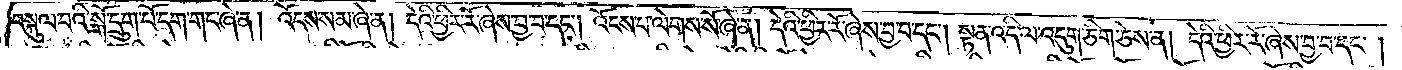བསྐུལ་བའི་སྒོ་དྲུག་པོ་དག་གང་ཞེ་ན། འོངས་སམ་ཞེ་ན། དེའི་ཕྱིར་རོ་ཞེས་བྱ་བ་དང༌། འོངས་པ་ལེགས་སོ་ཞེ་ན། དེའི་ཕྱིར་རོ་ཞེས་བྱ་བ་དང༌། སྟན་འདི་ལ་འདུག་ཅིག་ཅེས་ན། དེའི་ཕྱིར་རོ་ཞེས་བྱ་བ་དང༌།
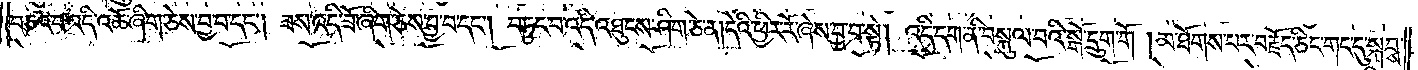བཅའ་བ་འདི་འཚོ་ཞིག་ཅེས་བྱ་བ་དང༌། ཟས་འདི་ཟོ་ཞིག་ཅེས་བྱ་བ་དང༌། བཏུང་བ་འདི་འཐུངས་ཤིག་ཅེ་ན། དེའི་ཕྱིར་རོ་ཞེས་བྱ་བ་སྟེ། འདི་དག་ནི་བསྐུལ་བའི་སྒོ་དྲུག་གོ །མ་ཐོགས་པར་བརྗོད་ཅིང་གང་དུ་སྐབས་
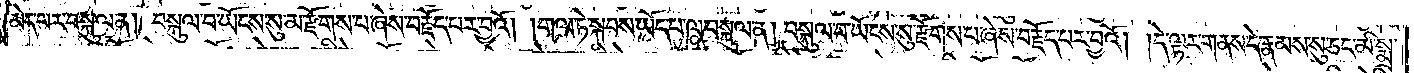མེད་པར་བསྐུལ་ན། བསྐུལ་བ་ཡོངས་སུ་མ་རྫོགས་པ་ཞེས་བརྗོད་པར་བྱའོ། །གལ་ཏེ་སྐབས་ཡོད་པ་ལ་བསྐུལ་ན། བསྐུལ་བ་ཡོངས་སུ་རྫོགས་པ་ཞེས་བརྗོད་པར་བྱའོ། །དེ་ལྟར་གནས་དེ་རྣམས་སུ་ཅང་མི་སྨྲ་
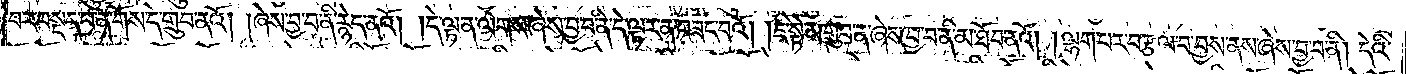བར་བསྡད་པ་ན་གོས་དེ་གྲུབ་ནའོ། །ཞེས་བྱ་བ་ནི་རྙེད་ནའོ། །དེ་ལྟ་ན་ལེགས་ཞེས་བྱ་བ་ནི་དེ་ལྟར་ན་བཟང་བའོ། །ཇི་སྟེ་མ་གྲུབ་ན་ཞེས་བྱ་བ་ནི་མ་ཐོབ་ནའོ། །ལྷག་པར་བརྩལ་བ་བྱས་ནས་ཞེས་བྱ་བ་ནི། དེའི་
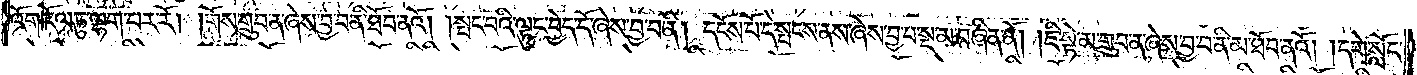འོག་རོལ་ཏུ་ལྷག་པར་རོ། །གོས་གྲུབ་ན་ཞེས་བྱ་བ་ནི་ཐོབ་ནའོ། །སྤང་བའི་ལྟུང་བྱེད་དོ་ཞེས་བྱ་བ་ནི། དངོས་པོ་དེ་སྤངས་ནས་ཞེས་བྱ་བ་སྔ་མ་བཞིན་ནོ། །ཇི་སྟེ་མ་གྲུབ་ན་ཞེས་བྱ་བ་ནི་མ་ཐོབ་ནའོ། །དགེ་སློང་
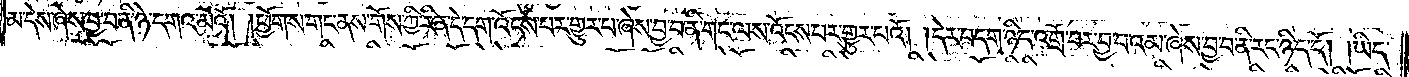མ་དེས་ཞེས་བྱ་བ་ནི་ཉེ་དགའ་མོའོ། །ཕྱོགས་གང་ནས་གོས་ཀྱི་རིན་དེ་དག་འོངས་པར་གྱུར་པ་ཞེས་བྱ་བ་ནི་གང་ལས་འོངས་པར་གྱུར་པའོ། །དེར་བདག་ཉིད་འགྲོ་བར་བྱ་བའམ་ཞེས་བྱ་བ་ནི་རང་ཉིད་དོ། །ཡིད་
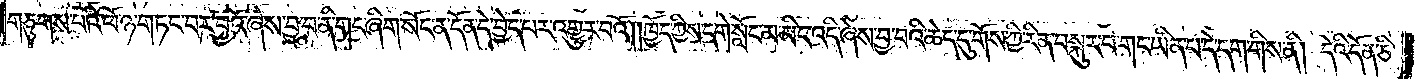གཅུགས་པའི་ཕོ་ཉ་གཏང་བར་བྱའོ་ཞེས་བྱ་བ་ནི་གང་ཞིག་སོང་ན་དོན་དེ་བྱེད་པར་འགྱུར་བའོ། །ཁྱོད་ཀྱིས་དགེ་སློང་མ་མིང་འདི་ཞེས་བྱ་བའི་ཆེད་དུ་གོས་ཀྱི་རིན་བསྐུར་བ་གང་ཡིན་པ་དེ་དག་གིས་ནི། དེའི་དོན་ཅི་
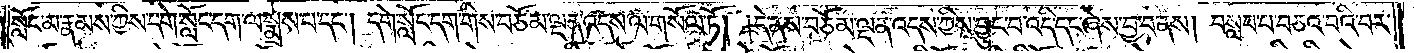སློང་མ་རྣམས་ཀྱིས་དགེ་སློང་དག་ལ་སྨྲས་པ་དང༌། དགེ་སློང་དག་གིས་བཅོམ་ལྡན་འདས་ལ་གསོལ་ཏོ། །དེ་ནས་བཅོམ་ལྡན་འདས་ཀྱིས་བྱུང་བ་འདི་དང་ཞེས་བྱ་བ་ནས། བསླབ་པ་བཅའ་བའི་བར་
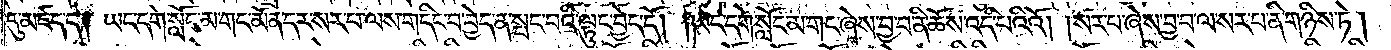དུ་མཛད་དེ། ཡང་དགེ་སློང་མ་གང་མོན་དར་སར་པ་ལས་གདིང་བ་བྱེད་ན་སྤང་བའི་ལྟུང་བྱེད་དོ། །ཡང་དགེ་སློང་མ་གང་ཞེས་བྱ་བ་ནི་ཆོས་འདི་པའིའོ། །སར་པ་ཞེས་བྱ་བ་ལ་སར་པ་ནི་གཉིས་ཏེ།
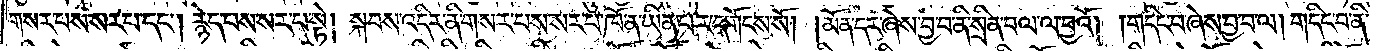གསར་པས་སར་པ་དང༌། རྙེད་པས་སར་པ་སྟེ། སྐབས་འདིར་ནི་གསར་པས་སར་པ་ཁོ་ན་ཡིན་པར་དགོངས་སོ། །མོན་དར་ཞེས་བྱ་བ་ནི་སྲིན་བལ་ལ་བྱའོ། །གདིང་བ་ཞེས་བྱ་བ་ལ། གདིང་བ་ནི་
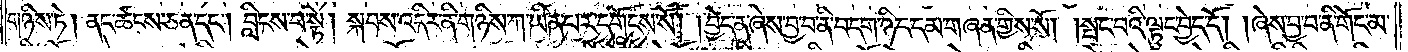གཉིས་ཏེ། ནང་ཚངས་ཅན་དང༌། བླིངས་པ་སྟེ། སྐབས་འདིར་ནི་གཉིས་ཀ་ཡིན་པར་དགོངས་སོ། །བྱེད་ན་ཞེས་བྱ་བ་ནི་བདག་ཉིད་དམ་གཞན་གྱིས་སོ། །སྤང་བའི་ལྟུང་བྱེད་དོ། །ཞེས་བྱ་བ་ནི་གོང་མ་
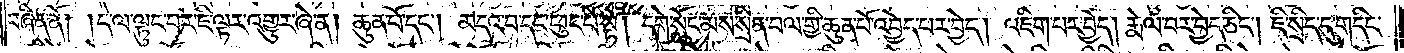བཞིན་ནོ། །དེ་ལ་ལྟུང་བར་ཇི་ལྟར་འགྱུར་ཞེ་ན། ཆུན་པོ་དང༌། མདའ་བ་དང་ཕུང་པོ་སྟེ། དགེ་སློང་མས་སྲིན་བལ་གྱི་ཆུན་པོ་འབྱེད་པར་བྱེད། འཇིག་པར་བྱེད། རྨེལ་བར་བྱེད་ཅིང༌། ཇི་སྲིད་དུ་གདིང་
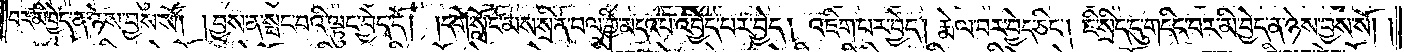བར་མི་བྱེད་ན་ཉེས་བྱས་སོ། །བྱས་ན་སྤང་བའི་ལྟུང་བྱེད་དོ། །དགེ་སློང་མས་སྲིན་བལ་གྱི་མདའ་པ་འབྱེད་པར་བྱེད། འཇིག་པར་བྱེད། རྨེལ་བར་བྱེད་ཅིང༌། ཇི་སྲིད་དུ་གདིང་བར་མི་བྱེད་ན་ཉེས་བྱས་སོ། །
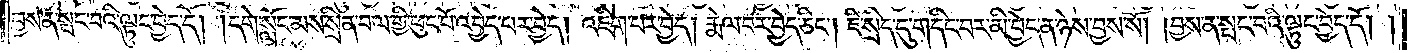བྱས་ན་སྤང་བའི་ལྟུང་བྱེད་དོ། །དགེ་སློང་མས་སྲིན་བལ་གྱི་ཕུང་པོ་འབྱེད་པར་བྱེད། འཇིག་པར་བྱེད། རྨེལ་བར་བྱེད་ཅིང༌། ཇི་སྲིད་དུ་གདིང་བར་མི་བྱེད་ན་ཉེས་བྱས་སོ། །བྱས་ན་སྤང་བའི་ལྟུང་བྱེད་དོ། །
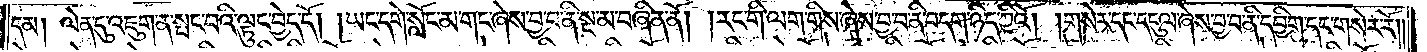དམ། ལེན་དུ་འཇུག་ན་སྤང་བའི་ལྟུང་བྱེད་དོ། །ཡང་དགེ་སློང་མ་གང་ཞེས་བྱ་བ་ནི་སྔ་མ་བཞིན་ནོ། །རང་གི་ལག་གིས་ཞེས་བྱ་བ་ནི་བདག་ཉིད་ཀྱིའོ། །གསེར་དང་དངུལ་ཞེས་བྱ་བ་ནི་དབྱིག་དང་གསེར་རོ༎
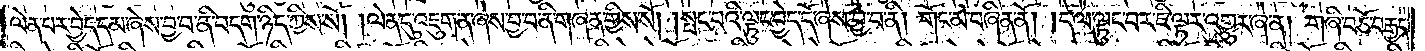ལེན་པར་བྱེད་དམ་ཞེས་བྱ་བ་ནི་བདག་ཉིད་ཀྱིས་སོ། །ལེན་དུ་འཇུག་ན་ཞེས་བྱ་བ་ནི་གཞན་གྱིས་སོ། །སྤང་བའི་ལྟུང་བྱེད་དོ་ཞེས་བྱ་བ་ནི། གོང་མ་བཞིན་ནོ། །དེ་ལ་ལྟུང་བར་ཇི་ལྟར་འགྱུར་ཞེ་ན། གཞི་བཅོ་བརྒྱད་
